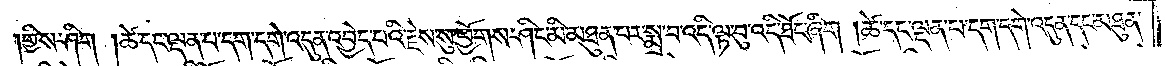གྱིས་ཤིག །ཚེ་དང་ལྡན་པ་དག་དགེ་འདུན་འབྱེད་པའི་རྗེས་སུ་ཕྱོགས་ཤིང་མི་མཐུན་པར་སྨྲ་བ་འདི་ལྟ་བུ་འདི་ཐོང་ཞིག །ཚེ་དང་ལྡན་པ་དག་དགེ་འདུན་དང་མཐུན་
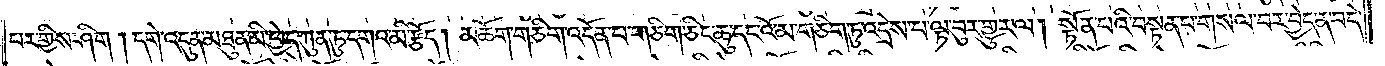པར་གྱིས་ཤིག །དགེ་འདུན་མཐུན་མི་ཕྱེད་ཀུན་ཏུ་དགའ་མི་རྩོད། མཆོག་གཅིག་འདོན་པ་གཅིག་ཅིང་ཆུ་དང་འོ་མ་གཅིག་ཏུ་འདྲེས་པ་ལྟ་བུར་གྱུར་ལ། སྟོན་པའི་བསྟན་པ་གསལ་བར་བྱེད་ན་བདེ་
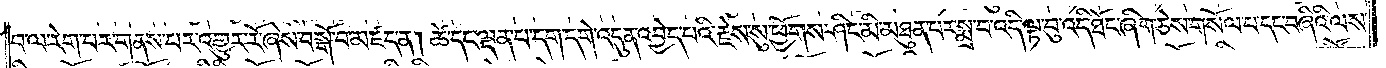བ་ལ་རེག་པར་གནས་པར་འགྱུར་རོ་ཞེས་བསྒོ་བ་མཛད་ན། ཚེ་དང་ལྡན་པ་དག་དགེ་འདུན་འབྱེད་པའི་རྗེས་སུ་ཕྱོགས་ཤིང་མི་མཐུན་པར་སྨྲ་བ་འདི་ལྟ་བུ་འདི་ཐོང་ཞིག་ཅེས་གསོལ་བ་དང་བཞིའི་ལས་
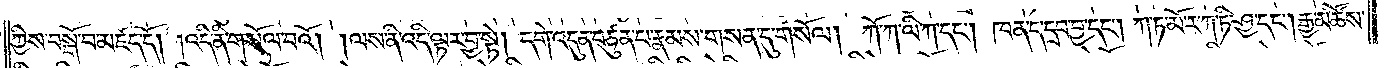ཀྱིས་བསྒོ་བ་མཛད་དོ། །འདི་ནི་གསོལ་བའོ། །ལས་ནི་འདི་ལྟར་བྱ་སྟེ། དགེ་འདུན་བཙུན་པ་རྣམས་གསན་དུ་གསོལ། ཀོ་ཀ་ལི་ཀ་དང༌། ཁན་ད་དྲབ་བྱ་དང༌། ཀ་ཏ་མོ་ར་ཀ་ཏི་ཤྱ་དང༌། རྒྱ་མཚོས་
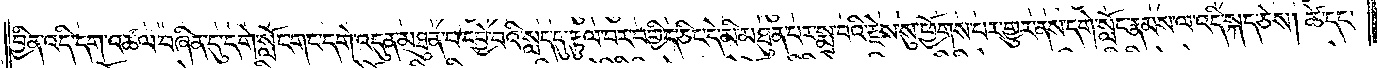བྱིན་འདི་དག་འཚལ་བཞིན་དགེ་སློང་གང་དགེ་འདུན་མཐུན་པ་དབྱེ་བའི་སླད་དུ་རྟུལ་བར་བགྱིད་ཅིང་དེ་མི་མཐུན་པར་སྨྲ་བའི་རྗེས་སུ་ཕྱོགས་པར་གྱུར་ནས་དགེ་སློང་རྣམས་ལ་འདི་སྐད་ཅེས། ཚེ་དང་
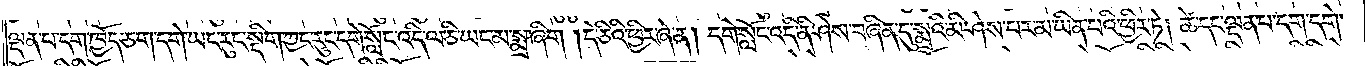ལྡན་པ་དག་ཁྱོད་ཅག་དགེ་ཡང་རུང་སྡིག་ཀྱང་དགེ་སློང་འདི་ལ་ཅི་ཡང་མ་སྨྲ་ཞིག །དེ་ཅིའི་ཕྱིར་ཞེ་ན། དགེ་སློང་འདི་ནི་ཤེས་བཞིན་དུ་སྨྲའི་མི་ཤེས་པར་མ་ཡིན་པའི་ཕྱིར་ཏེ། ཚེ་དང་ལྡན་པ་དག་དགེ་
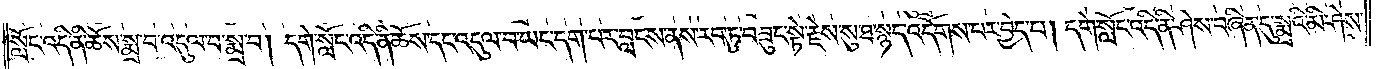སློང་འདི་ནི་ཆོས་སྨྲ་བ་འདུལ་བ་སྨྲ་བ། དགེ་སློང་འདི་ནི་ཆོས་དང་འདུལ་བ་ཡང་དག་པར་བླངས་ནས་རབ་ཏུ་བཟུང་སྟེ་རྗེས་སུ་ཐ་སྙད་འདོགས་པར་བྱེད་པ། དགེ་སློང་འདི་ནི་ཤེས་བཞིན་དུ་སྨྲའི་མི་ཤེས་
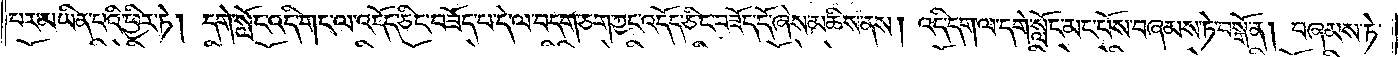པར་མ་ཡིན་པའི་ཕྱིར་ཏེ། དགེ་སློང་འདི་གང་ལ་འདོད་ཅིང་བཟོད་པ་དེ་ལ་བདག་ཅག་ཀྱང་འདོད་ཅིང་བཟོད་དོ་ཞེས་མཆིས་ནས། འདི་དག་ལ་དགེ་སློང་མང་པོས་བཞམས་ཏེ་བསྒོ་ན། བཞམས་ཏེ་
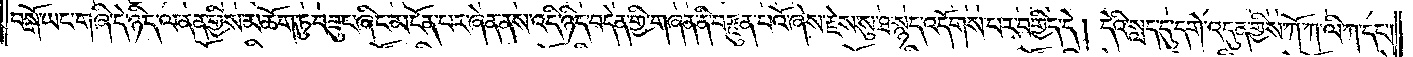བསྒོ་ཡང་གཞི་དེ་ཉིད་ལ་ནན་གྱིས་མཆོག་ཏུ་བཟུང་ཞིང་མངོན་པར་ཞེན་ནས་འདི་ཉིད་བདེན་གྱི་གཞན་ནི་བརྫུན་པའོ་ཞེས་རྗེས་སུ་ཐ་སྙད་འདོགས་པར་བགྱིད་དེ། དེའི་སླད་དུ་དགེ་འདུན་གྱིས་ཀོ་ཀ་ལི་ཀ་དང༌།
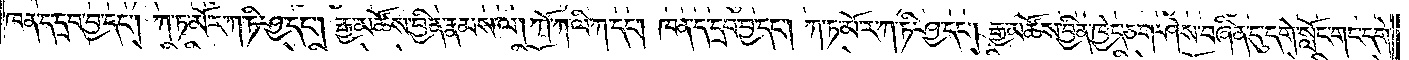ཁན་ད་དྲབ་བྱ་དང༌། ཀ་ཏ་མོ་ར་ཀ་ཏི་ཤྱ་དང༌། རྒྱ་མཚོས་བྱིན་རྣམས་ལ། ཀོ་ཀ་ལི་ཀ་དང༌། ཁན་ད་དྲབ་བྱ་དང༌། ཀ་ཏ་མོ་ར་ཀ་ཏི་ཤྱ་དང༌། རྒྱ་མཚོས་བྱིན་ཁྱེད་ཅག་ཤེས་བཞིན་དུ་དགེ་སློང་གང་དགེ་
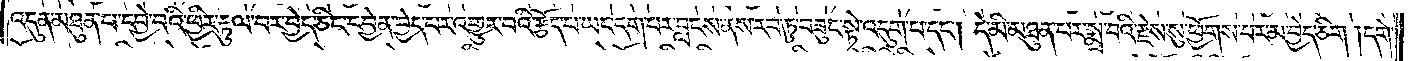འདུན་མཐུན་པ་དབྱེ་བའི་ཕྱིར་རྟུལ་བར་བྱེད་ཅིང་དབྱེན་བྱེད་པར་འགྱུར་བའི་རྩོད་པ་ཡང་དག་པར་བླངས་ནས་རབ་ཏུ་བཟུང་སྟེ་འདུག་པ་དང༌། དེ་མི་མཐུན་པར་སྨྲ་བའི་རྗེས་སུ་ཕྱོགས་པར་མ་བྱེད་ཅིག །དགེ་
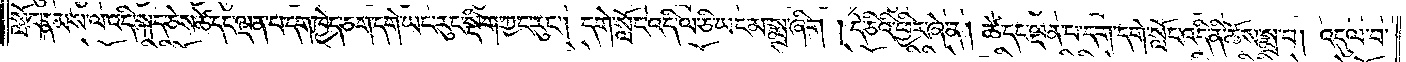སློང་རྣམས་ལ་འདི་སྐད་ཅེས་ཚེ་དང་ལྡན་པ་དག་ཁྱེད་ཅག་དགེ་ཡང་རུང་སྡིག་ཀྱང་རུང༌། དགེ་སློང་འདི་ལ་ཅི་ཡང་མ་སྨྲ་ཞིག །དེ་ཅིའི་ཕྱིར་ཞེ་ན། ཚེ་དང་ལྡན་པ་དག་དགེ་སློང་འདི་ནི་ཆོས་སྨྲ་བ། འདུལ་བ་
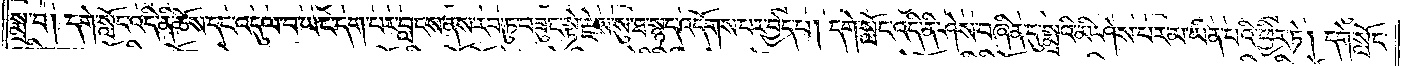སྨྲ་བ། དགེ་སློང་འདི་ནི་ཆོས་དང་འདུལ་བ་ཡང་དག་པར་བླངས་ནས་རབ་ཏུ་བཟུང་སྟེ་རྗེས་སུ་ཐ་སྙད་འདོགས་པར་བྱེད་པ། དགེ་སློང་འདི་ནི་ཤེས་བཞིན་དུ་སྨྲའི་མི་ཤེས་པར་མ་ཡིན་པའི་ཕྱིར་ཏེ། དགེ་སློང་
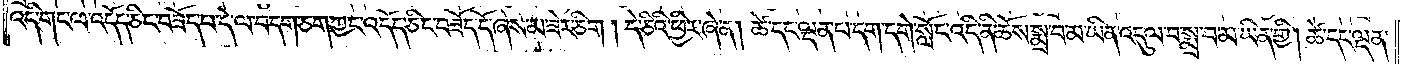འདི་གང་ལ་འདོད་ཅིང་བཟོད་པ་དེ་ལ་བདག་ཅག་ཀྱང་འདོད་ཅིང་བཟོད་དོ་ཞེས་མ་ཟེར་ཅིག །དེ་ཅིའི་ཕྱིར་ཞེ་ན། ཚེ་དང་ལྡན་པ་དག་དགེ་སློང་འདི་ནི་ཆོས་སྨྲ་བ་མ་ཡིན་འདུལ་བ་སྨྲ་བ་མ་ཡིན་གྱི། ཚེ་དང་ལྡན་
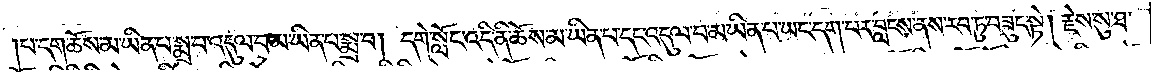པ་དག་ཆོས་མ་ཡིན་པ་སྨྲ་བ་འདུལ་བ་མ་ཡིན་པ་སྨྲ་བ། དགེ་སློང་འདི་ནི་ཆོས་མ་ཡིན་པ་དང་འདུལ་བ་མ་ཡིན་པ་ཡན་དག་པར་བླངས་ནས་རབ་ཏུ་བཟུང་སྟེ། རྗེས་སུ་ཐ་
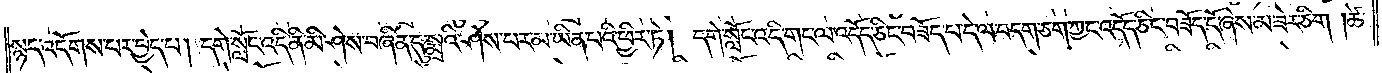སྙད་འདོགས་པར་བྱེད་པ། དགེ་སློང་འདི་ནི་མི་ཤེས་བཞིན་དུ་སྨྲའི་ཤེས་པར་མ་ཡིན་པའི་ཕྱིར་ཏེ། དགེ་སློང་འདི་གང་ལ་འདོད་ཅིང་བཟོད་པ་དེ་ལ་བདག་ཅག་ཀྱང་འདོད་ཅིང་བཟོད་དོ་ཞེས་མ་ཟེར་ཅིག །ཚེ་
